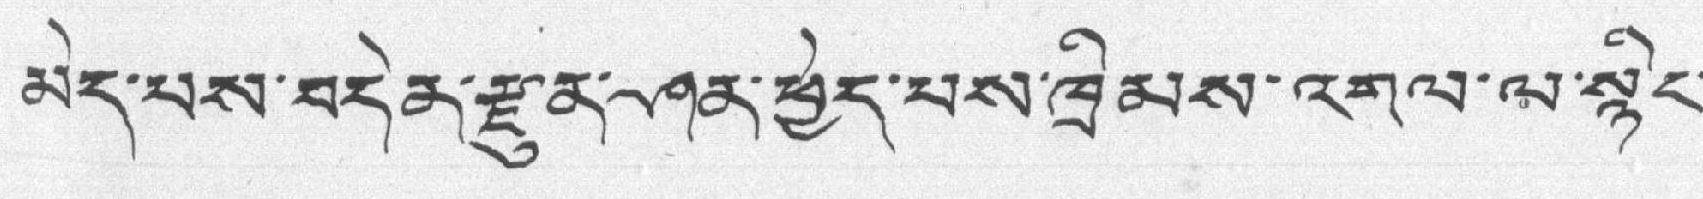མེད་པས་བདེན་རྫུན་ཤན་ཕྱེད་པས་ཁྲིམས་འགལ་ལ་སྙིང་
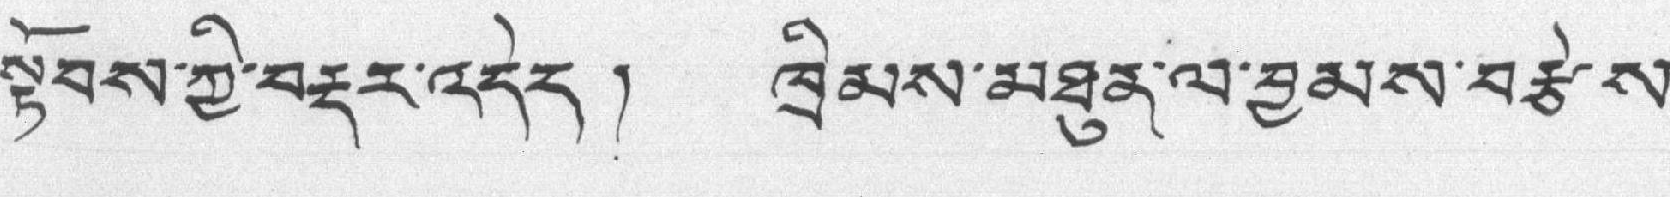སྟོབས་ཀྱི་བརྡར་འདོད། ཁྲིམས་མཐུན་ལ་བྱམས་བརྩེས་
